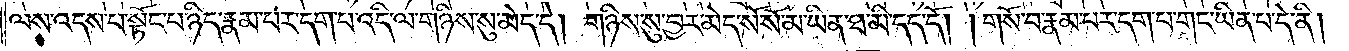ལས་འདས་པ་སྟོང་པ་ཉིད་རྣམ་པར་དག་པ་འདི་ལ་གཉིས་སུ་མེད་དེ། གཉིས་སུ་བྱར་མེད་སོ་སོ་མ་ཡིན་ཐ་མི་དད་དོ། །གསོ་བ་རྣམ་པར་དག་པ་གང་ཡིན་པ་དེ་ནི།
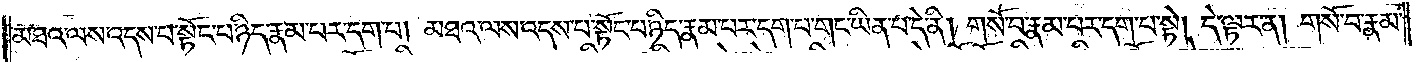མཐའ་ལས་འདས་པ་སྟོང་པ་ཉིད་རྣམ་པར་དག་པ། མཐའ་ལས་འདས་པ་སྟོང་པ་ཉིད་རྣམ་པར་དག་པ་གང་ཡིན་པ་དེ་ནི། གསོ་བ་རྣམ་པར་དག་པ་སྟེ། དེ་ལྟར་ན། གསོ་བ་རྣམ་
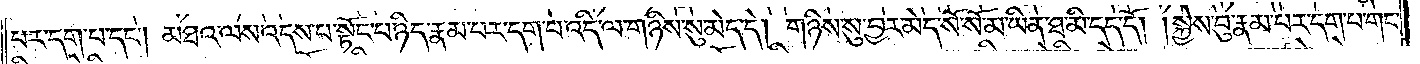པར་དག་པ་དང༌། མཐའ་ལས་འདས་པ་སྟོང་པ་ཉིད་རྣམ་པར་དག་པ་འདི་ལ་གཉིས་སུ་མེད་དེ། གཉིས་སུ་བྱར་མེད་སོ་སོ་མ་ཡིན་ཐ་མི་དད་དོ། །སྐྱེས་བུ་རྣམ་པར་དག་པ་གང་
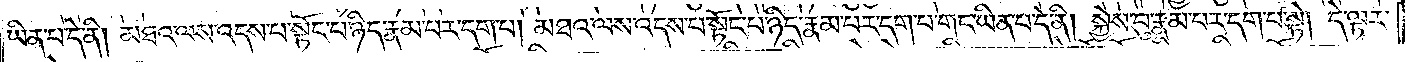ཡིན་པ་དེ་ནི། མཐའ་ལས་འདས་པ་སྟོང་པ་ཉིད་རྣམ་པར་དག་པ། མཐའ་ལས་འདས་པ་སྟོང་པ་ཉིད་རྣམ་པར་དག་པ་གང་ཡིན་པ་དེ་ནི། སྐྱེས་བུ་རྣམ་པར་དག་པ་སྟེ། དེ་ལྟར་
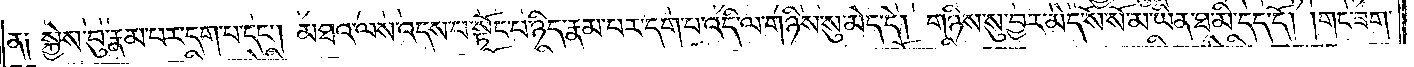ན། སྐྱེས་བུ་རྣམ་པར་དག་པ་དང༌། མཐའ་ལས་འདས་པ་སྟོང་པ་ཉིད་རྣམ་པར་དག་པ་འདི་ལ་གཉིས་སུ་མེད་དེ། གཉིས་སུ་བྱར་མེད་སོ་སོ་མ་ཡིན་ཐ་མི་དད་དོ། །གང་ཟག་
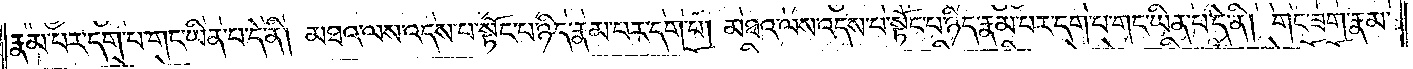རྣམ་པར་དག་པ་གང་ཡིན་པ་དེ་ནི། མཐའ་ལས་འདས་པ་སྟོང་པ་ཉིད་རྣམ་པར་དག་པ། མཐའ་ལས་འདས་པ་སྟོང་པ་ཉིད་རྣམ་པར་དག་པ་གང་ཡིན་པ་དེ་ནི། གང་ཟག་རྣམ་
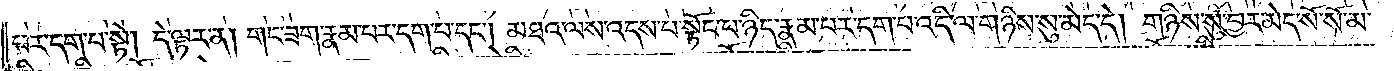པར་དག་པ་སྟེ། དེ་ལྟར་ན། གང་ཟག་རྣམ་པར་དག་པ་དང༌། མཐའ་ལས་འདས་པ་སྟོང་པ་ཉིད་རྣམ་པར་དག་པ་འདི་ལ་གཉིས་སུ་མེད་དེ། གཉིས་སུ་བྱར་མེད་སོ་སོ་མ་
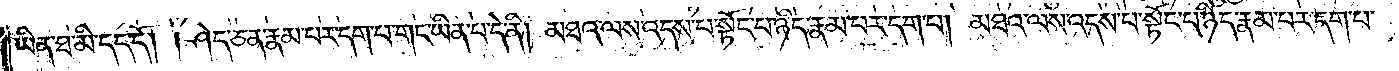ཡིན་ཐ་མི་དད་དོ། །ཤེད་ཅན་རྣམ་པར་དག་པ་གང་ཡིན་པ་དེ་ནི། མཐའ་ལས་འདས་པ་སྟོང་པ་ཉིད་རྣམ་པར་དག་པ། མཐའ་ལས་འདས་པ་སྟོང་པ་ཉིད་རྣམ་པར་དག་པ་
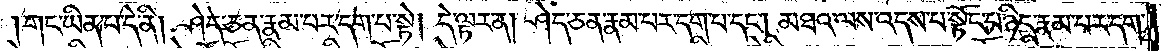གང་ཡིན་པ་དེ་ནི། ཤེད་ཅན་རྣམ་པར་དག་པ་སྟེ། དེ་ལྟར་ན། ཤེད་ཅན་རྣམ་པར་དག་པ་དང༌། མཐའ་ལས་འདས་པ་སྟོང་པ་ཉིད་རྣམ་པར་དག་
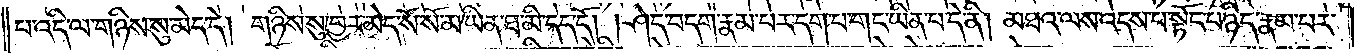པ་འདི་ལ་གཉིས་སུ་མེད་དེ། གཉིས་སུ་བྱར་མེད་སོ་སོ་མ་ཡིན་ཐ་མི་དད་དོ། །ཤེད་བདག་རྣམ་པར་དག་པ་གང་ཡིན་པ་དེ་ནི། མཐའ་ལས་འདས་པ་སྟོང་པ་ཉིད་རྣམ་པར་
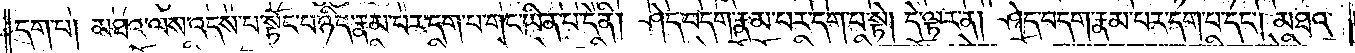དག་པ། མཐའ་ལས་འདས་པ་སྟོང་པ་ཉིད་རྣམ་པར་དག་པ་གང་ཡིན་པ་དེ་ནི། ཤེད་བདག་རྣམ་པར་དག་པ་སྟེ། དེ་ལྟར་ན། ཤེད་བདག་རྣམ་པར་དག་པ་དང༌། མཐའ་
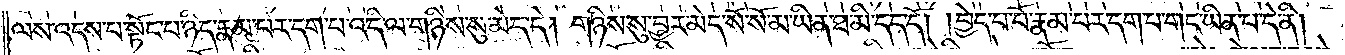ལས་འདས་པ་སྟོང་པ་ཉིད་རྣམ་པར་དག་པ་འདི་ལ་གཉིས་སུ་མེད་དེ། གཉིས་སུ་བྱར་མེད་སོ་སོ་མ་ཡིན་ཐ་མི་དད་དོ། །བྱེད་པ་པོ་རྣམ་པར་དག་པ་གང་ཡིན་པ་དེ་ནི།
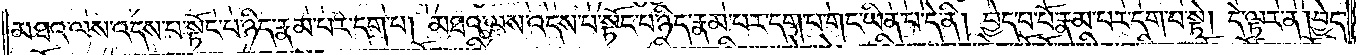མཐའ་ལས་འདས་པ་སྟོང་པ་ཉིད་རྣམ་པར་དག་པ། མཐའ་ལས་འདས་པ་སྟོང་པ་ཉིད་རྣམ་པར་དག་པ་གང་ཡིན་པ་དེ་ནི། བྱེད་པ་པོ་རྣམ་པར་དག་པ་སྟེ། དེ་ལྟར་ན། བྱེད་
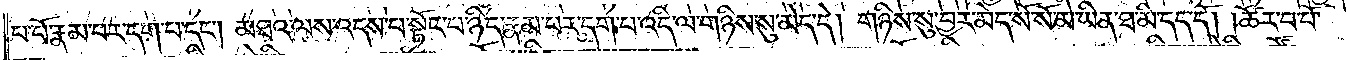པ་པོ་རྣམ་པར་དག་པ་དང༌། མཐའ་ལས་འདས་པ་སྟོང་པ་ཉིད་རྣམ་པར་དག་པ་འདི་ལ་གཉིས་སུ་མེད་དེ། གཉིས་སུ་བྱར་མེད་སོ་སོ་མ་ཡིན་ཐ་མི་དད་དོ། །ཚོར་བ་པོ་
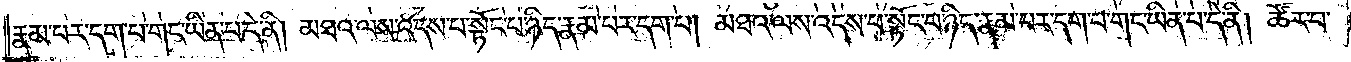རྣམ་པར་དག་པ་གང་ཡིན་པ་དེ་ནི། མཐའ་ལས་འདས་པ་སྟོང་པ་ཉིད་རྣམ་པར་དག་པ། མཐའ་ལས་འདས་པ་སྟོང་པ་ཉིད་རྣམ་པར་དག་པ་གང་ཡིན་པ་དེ་ནི། ཚོར་བ་
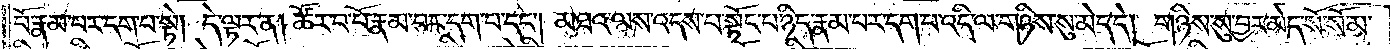པོ་རྣམ་པར་དག་པ་སྟེ། དེ་ལྟར་ན། ཚོར་བ་པོ་རྣམ་པར་དག་པ་དང༌། མཐའ་ལས་འདས་པ་སྟོང་པ་ཉིད་རྣམ་པར་དག་པ་འདི་ལ་གཉིས་སུ་མེད་དེ། གཉིས་སུ་བྱར་མེད་སོ་སོ་མ་
